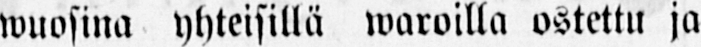wuosina yhteisillä waroilla ostettu ja
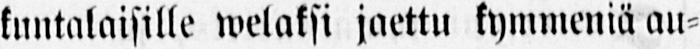kuntalaisille welaksi jaettu kymmeniä au-
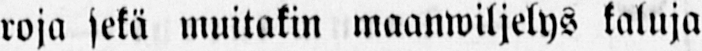roja sekä muitakin maanwiljelys kaluja
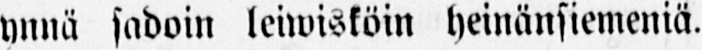ynnä sadoin leiwisköin heinänsiemeniä.
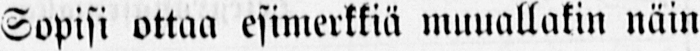Sopisi ottaa esimerkkiä muuallakin näin
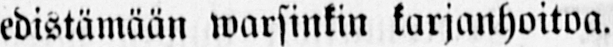edistämään warsinkin karjanhoitoa.
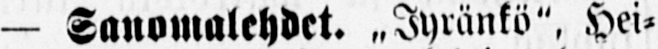— Sanomalehdet. „Jyränkö", Hei-
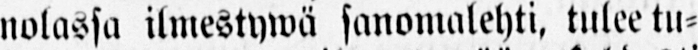nolassa ilmestywä sanomalehti, tulee tu-
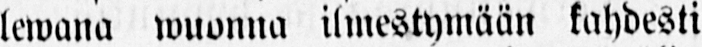lewana wuonna ilmestymään kahdesti
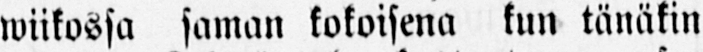wiikossa saman kokoisena kun tänäkin
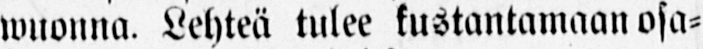wuonna. Lehteä tulee kustantamaan osa-
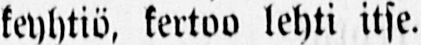keyhtiö, kertoo lehti itse.
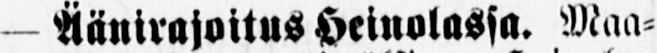— Äänirajoitus Heinolassa. Maa-
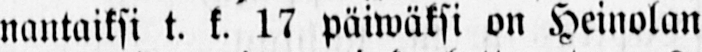nantaiksi t. k. 17 päiwäksi on Heinolan
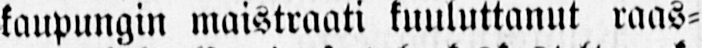kaupungin maistraati kuuluttanut raas-
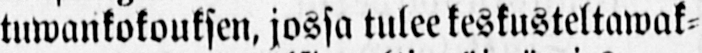tuwankokouksen, jossa tulee keskusteltawak-
